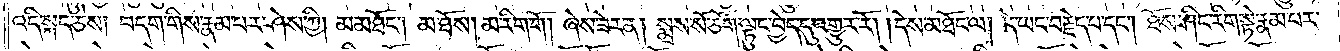འདི་སྐད་ཅེས། བདག་གིས་རྣམ་པར་ཤེས་ཀྱི། མ་མཐོང༌། མ་ཐོས། མ་རིག་གོ། ཞེས་ཟེར་ན། སྨྲས་སོ་ཅོག་ལྟུང་བྱེད་དུ་འགྱུར་རོ། །དེས་མཐོང་ལ། དེ་ཡང་བརྗེད་པ་དང༌། ཐོས་ཤིང་རིག་སྟེ་རྣམ་པར་
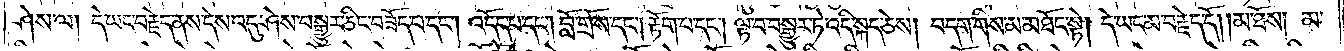ཤེས་ལ། དེ་ཡང་བརྗེད་ནས་དེས་འདུ་ཤེས་བསྒྱུར་ཅིང་བཟོད་པ་དང༌། འདོད་པ་དང༌། བློ་གྲོས་དང༌། རྟོག་པ་དང༌། ལྟ་བ་བསྒྱུར་ཏེ་འདི་སྐད་ཅེས། བདག་གིས་མ་མཐོང་སྟེ། དེ་ཡང་མ་བརྗེད་དོ། །མ་ཐོས། མ་
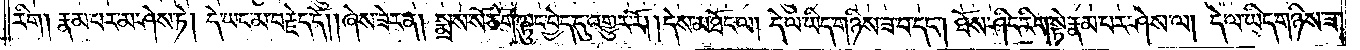རིག །རྣམ་པར་མ་ཤེས་ཏེ། དེ་ཡང་མ་བརྗེད་དོ། །ཞེས་ཟེར་ན། སྨྲས་སོ་ཅོག་ལྟུང་བྱེད་དུ་འགྱུར་རོ། །དེས་མཐོང་ལ། དེ་ལ་ཡིད་གཉིས་ཟ་བ་དང༌། ཐོས་ཤིང་རིག་སྟེ་རྣམ་པར་ཤེས་ལ། དེ་ལ་ཡིད་གཉིས་ཟ་
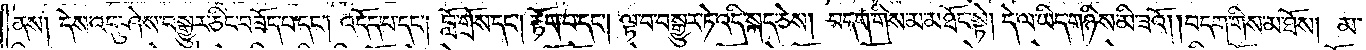ནས། དེས་འདུ་ཤེས་བསྒྱུར་ཅིང་བཟོད་པ་དང༌། འདོད་པ་དང༌། བློ་གྲོས་དང༌། རྟོག་པ་དང༌། ལྟ་བ་བསྒྱུར་ཏེ་འདི་སྐད་ཅེས། བདག་གིས་མ་མཐོང་སྟེ། དེ་ལ་ཡིད་གཉིས་མི་ཟའོ། །བདག་གིས་མ་ཐོས། མ་
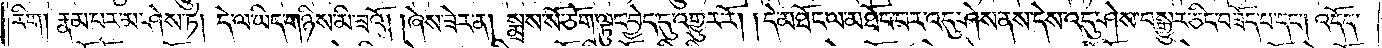རིག། རྣམ་པར་མ་ཤེས་ཏེ། དེ་ལ་ཡིད་གཉིས་མི་ཟའོ། །ཞེས་ཟེར་ན། སྨྲས་སོ་ཅོག་ལྟུང་བྱེད་དུ་འགྱུར་རོ། །དེ་མཐོང་ལ་མཐོང་བར་འདུ་ཤེས་ནས་དེས་འདུ་ཤེས་བསྒྱུར་ཅིང་བཟོད་པ་དང༌། འདོད་
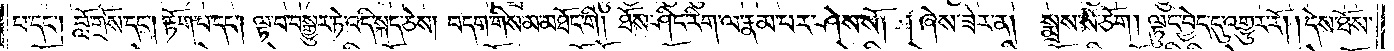པ་དང༌། བློ་གྲོས་དང༌། རྟོག་པ་དང༌། ལྟ་བ་བསྒྱུར་ཏེ་འདི་སྐད་ཅེས། བདག་གིས་མ་མཐོང་གི། ཐོས་ཤིང་རིག་ལ་རྣམ་པར་ཤེས་སོ། །ཞེས་ཟེར་ན། སྨྲས་སོ་ཅོག། ལྟུང་བྱེད་དུ་འགྱུར་རོ། །དེས་ཐོས་
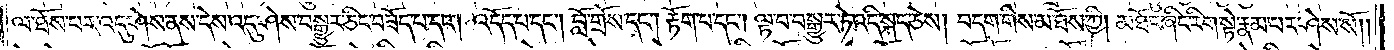ལ་ཐོས་པར་འདུ་ཤེས་ནས་དེས་འདུ་ཤེས་བསྒྱུར་ཅིང་བཟོད་པ་དང༌། འདོད་པ་དང༌། བློ་གྲོས་དང༌། རྟོག་པ་དང༌། ལྟ་བ་བསྒྱུར་ཏེ་འདི་སྐད་ཅེས། བདག་གིས་མ་ཐོས་ཀྱི། མཐོང་ཞིང་རིག་སྟེ་རྣམ་པར་ཤེས་སོ། །
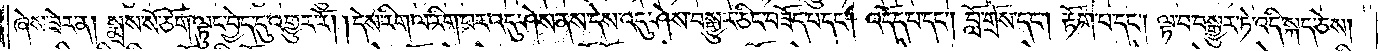ཞེས་ཟེར་ན། སྨྲས་སོ་ཅོག་ལྟུང་བྱེད་དུ་འགྱུར་རོ། །དེས་རིག་ལ་རིག་པར་འདུ་ཤེས་ནས་དེས་འདུ་ཤེས་བསྒྱུར་ཅིང་བཟོད་པ་དང༌། འདོད་པ་དང༌། བློ་གྲོས་དང༌། རྟོག་པ་དང༌། ལྟ་བ་བསྒྱུར་ཏེ་འདི་སྐད་ཅེས།
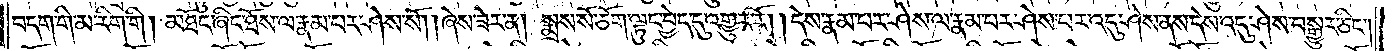བདག་གི་མ་རིག་གི། མཐོང་ཞིང་ཐོས་ལ་རྣམ་པར་ཤེས་སོ། །ཞེས་ཟེར་ན། སྨྲས་སོ་ཅོག་ལྟུང་བྱེད་དུ་འགྱུར་རོ། །དེས་རྣམ་པར་ཤེས་ལ་རྣམ་པར་ཤེས་པར་འདུ་ཤེས་ནས་དེས་འདུ་ཤེས་བསྒྱུར་ཅིང༌།
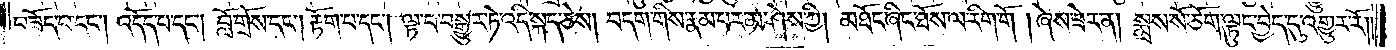བཟོད་པ་དང༌། འདོད་པ་དང༌། བློ་གྲོས་དང༌། རྟོག་པ་དང༌། ལྟ་བ་བསྒྱུར་ཏེ་འདི་སྐད་ཅེས། བདག་གིས་རྣམ་པར་མ་ཤེས་ཀྱི། མཐོང་ཞིང་ཐོས་ལ་རིག་གོ །ཞེས་ཟེར་ན། སྨྲས་སོ་ཅོག་ལྟུང་བྱེད་དུ་འགྱུར་རོ༎
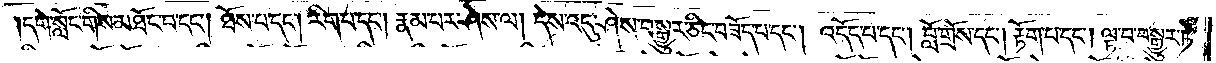དགེ་སློང་གིས་མཐོང་བ་དང༌། ཐོས་པ་དང༌། རིག་པ་དང༌། རྣམ་པར་ཤེས་ལ། དེས་འདུ་ཤེས་བསྒྱུར་ཅིང་བཟོད་པ་དང༌། འདོད་པ་དང༌། བློ་གྲོས་དང༌། རྟོག་པ་དང༌། ལྟ་བ་བསྒྱུར་ཏེ་
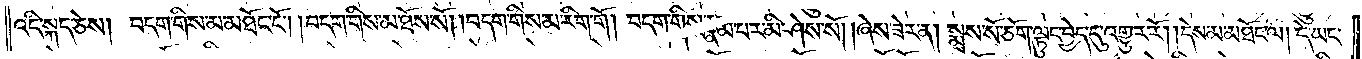འདི་སྐད་ཅེས། བདག་གིས་མ་མཐོང་ངོ༌། །བདག་གིས་མ་ཐོས་སོ། །བདག་གིས་མ་རིག་གོ། བདག་གིས་རྣམ་པར་མི་ཤེས་སོ། །ཞེས་ཟེར་ན། སྨྲས་སོ་ཅོག་ལྟུང་བྱེད་དུ་འགྱུར་རོ། །དེས་མ་མཐོང་ལ། དེ་ཡང་
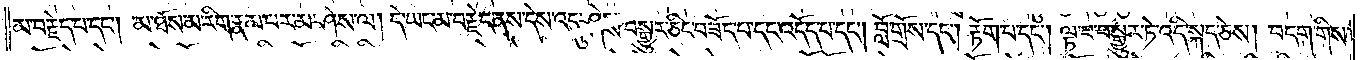མ་བརྗེད་པ་དང༌། མ་ཐོས་མ་རིག་རྣམ་པར་མ་ཤེས་ལ། དེ་ཡང་མ་བརྗེད་ནས་དེས་འདུ་ཤེས་བསྒྱུར་ཅིང་བཟོད་པ་དང་འདོད་པ་དང༌། བློ་གྲོས་དང༌། རྟོག་པ་དང༌། ལྟ་བ་བསྒྱུར་ཏེ་འདི་སྐད་ཅེས། བདག་གིས་
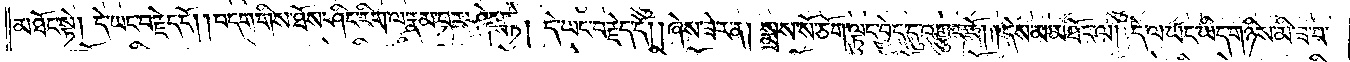མཐོང་སྟེ། དེ་ཡང་བརྗེད་དོ། །བདག་གིས་ཐོས་ཤིང་རིག་ལ་རྣམ་པར་ཤེས་ཏེ། དེ་ཡང་བརྗེད་དོ། །ཞེས་ཟེར་ན། སྨྲས་སོ་ཅོག་ལྟུང་བྱེད་དུ་འགྱུར་རོ། །དེས་མ་མཐོང་ལ། དེ་ལ་ཡང་ཡིད་གཉིས་མི་ཟ་བ་
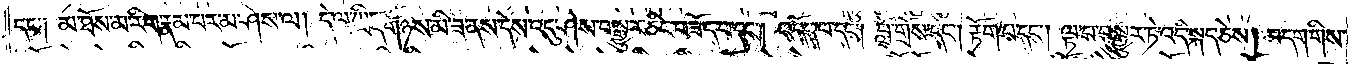དང་༑ མ་ཐོས་མ་རིག་རྣམ་པར་མ་ཤེས་ལ། དེ་ལ་ཡིད་གཉིས་མི་ཟ་ནས་དེས་འདུ་ཤེས་བསྒྱུར་ཅིང་བཟོད་པ་དང༌། འདོད་པ་དང༌། བློ་གྲོས་དང༌། རྟོག་པ་དང༌། ལྟ་བ་བསྒྱུར་ཏེ་འདི་སྐད་ཅེས། བདག་གིས་
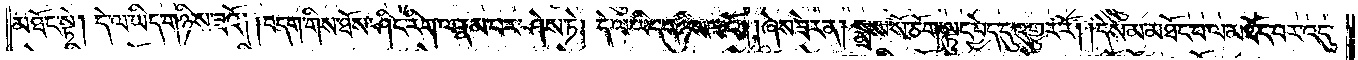མཐོང་སྟེ། དེ་ལ་ཡིད་གཉིས་ཟའོ། །བདག་གིས་ཐོས་ཤིང་རིག་ལ་རྣམ་པར་ཤེས་ཏེ། དེ་ལ་ཡིད་གཉིས་ཟའོ། །ཞེས་ཟེར་ན། སྨྲས་སོ་ཅོག་ལྟུང་བྱེད་དུ་འགྱུར་རོ། །དེས་མ་མཐོང་བ་ལ་མཐོང་བར་འདུ་
